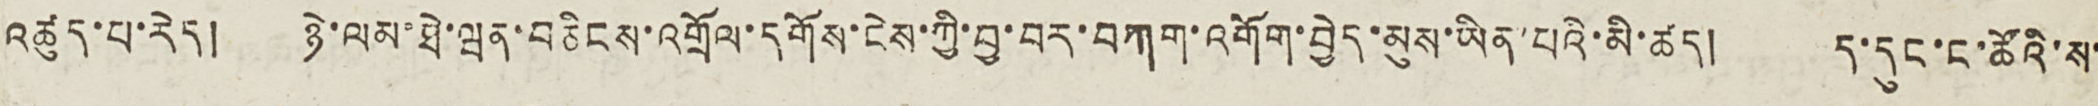འཚུད་པ་རེད། ཉེ་ལམ་ཐེ་ཝན་བཅིངས་འགྲོལ་དགོས་ངེས་ཀྱི་བྱ་བར་བཀག་འགོག་བྱེད་མུས་ཡིན་པའི་མི་ཚད། ད་དུང་ང་ཚོའི་ས་
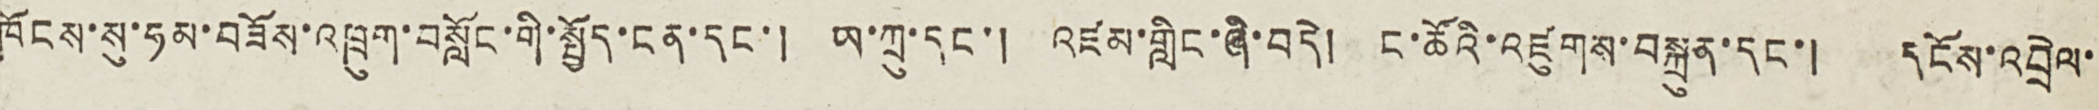ཁོངས་སུ་ཧམ་བཟོས་འཁྲུག་བསློང་གི་སྤྱོད་ངན་དང་། ཡ་ཀྲུ་དང་། འཛམ་གླིང་ཞི་བདེ། ང་ཚོའི་འཛུགས་བསྐྲུན་དང་། དངོས་འབྲེལ་
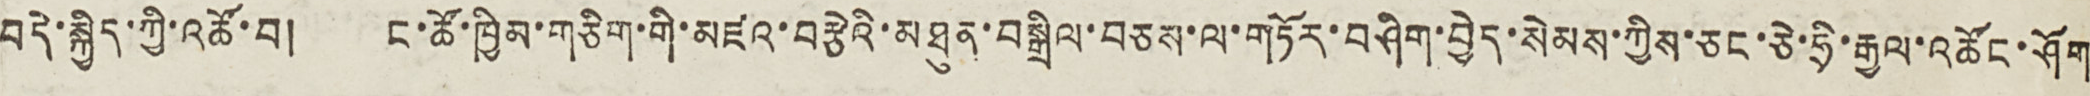བདེ་སྐྱིད་ཀྱི་འཚོ་བ། ང་ཚོ་ཁྱིམ་གཅིག་གི་མཛའ་བརྩེའི་མཐུན་བསྒྲིལ་བཅས་ལ་གཏོར་བཤིག་བྱེད་སེམས་ཀྱིས་ཅང་ཅེ་ཧྲི་རྒྱལ་འཚོང་ཤོག
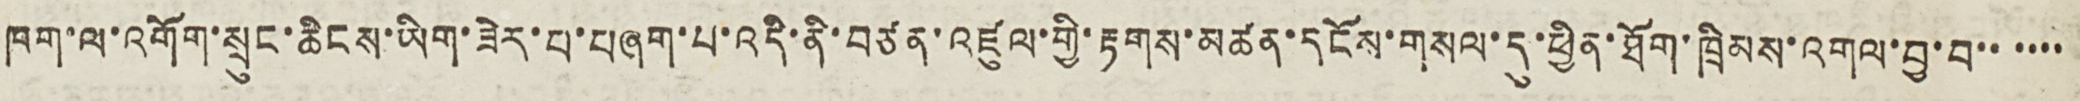ཁག་ལ་འགོག་སྲུང་ཆིངས་ཡིག་ཟེར་བ་བཞག་པ་འདི་ནི་བཙན་འཛུལ་གྱི་རྟགས་མཚན་དངོས་གསལ་དུ་ཕྱིན་ཐོག་ཁྲིམས་འགལ་བྱ་བ་་་་་་
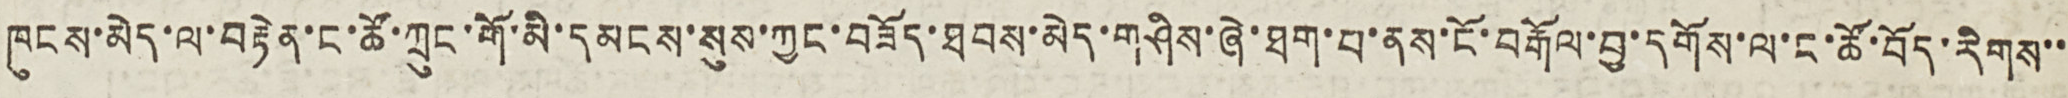ཁུངས་མེད་ལ་བརྟེན་ང་ཚོ་ཀྲུང་གོ་མི་དམངས་སུས་ཀྱང་བཟོད་ཐབས་མེད་གཤིས་ཞེ་ཐག་པ་ནས་ངོ་བརྒོལ་བྱ་དགོས་ལ་ང་ཚོ་བོད་རིགས་་
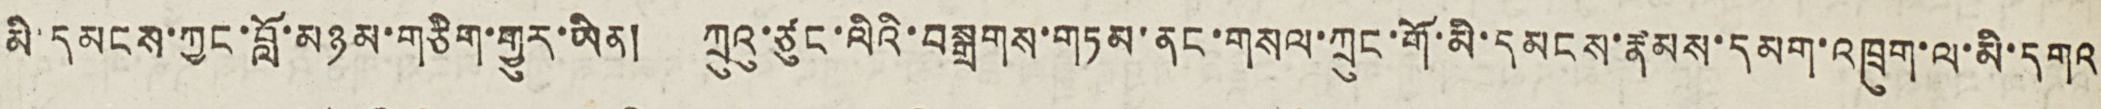མི་དམངས་ཀྱང་བློ་མཉམ་གཅིག་གྱུར་ཡིན། ཀྲུའུ་ཙུང་ལིའི་བསྒྲགས་གཏམ་ནང་གསལ་ཀྲུང་གོ་མི་དམངས་རྣམས་དམག་འཁྲུག་ལ་མི་དགའ
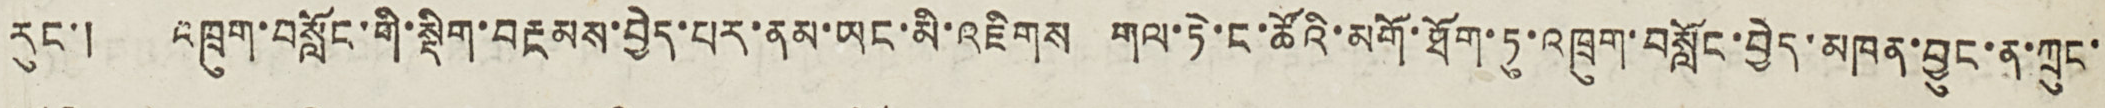རུང་། འཁྲུག་བསློང་གི་སྡིག་བརྔམས་བྱེད་པར་ནམ་ཡང་མི་འཇིགས གལ་ཏེ་ང་ཚོའི་མགོ་ཐོག་ཏུ་འཁྲུག་བསློང་བྱེད་མཁན་བྱུང་ན་ཀྲུང་
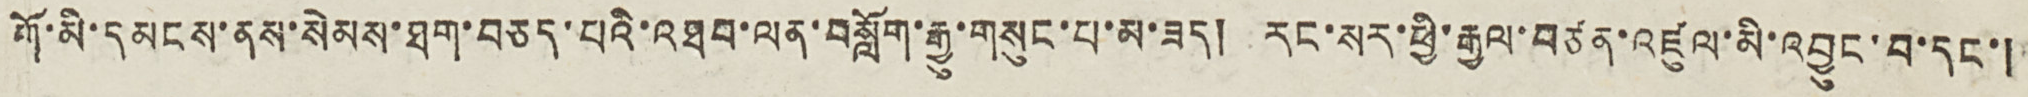གོ་མི་དམངས་ནས་སེམས་ཐག་བཅད་པའི་འཐབ་ལན་བསློག་རྒྱུ་གསུང་པ་མ་ཟད། རང་སར་ཕྱི་རྒྱལ་བཙན་འཛུལ་མི་འབྱུང་བ་དང་།
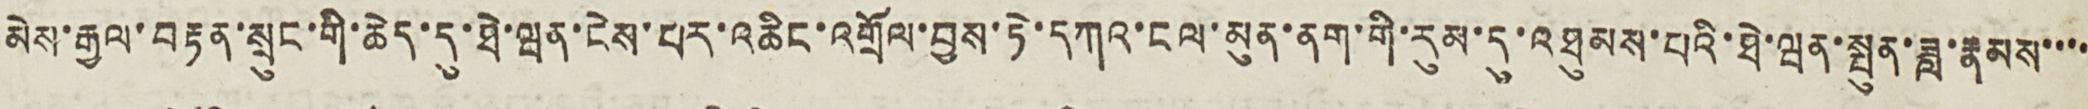མེས་རྒྱལ་བརྟན་སྲུང་གི་ཆེད་དུ་ཐེ་ཝན་ངེས་པར་འཆིང་འགྲོལ་བྱས་ཏེ་དཀའ་ངལ་མུན་ནག་གི་རུམ་དུ་འཐུམས་པའི་ཐེ་ཝན་སྤུན་ཟླ་རྣམས་་་་
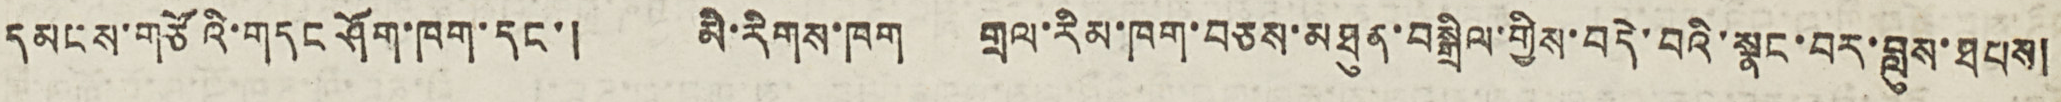དམངས་གཙོའི་གདང ཤོག་ཁག་དང་། མི་རིགས་ཁག གྲལ་རིམ་ཁག་བཅས་མཐུན་བསྒྲིལ་གྱིས་བདེ་བའི་སྣང་བར་བླུས་ཐབས།
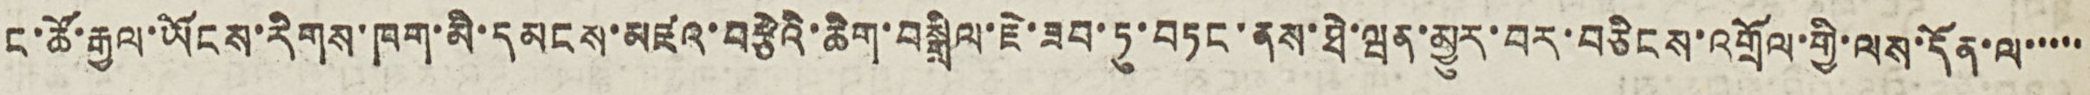ང་ཚོ་རྒྱལ་ཡོངས་རིགས་ཁག་མི་དམངས་མཛའ་བརྩེའི་ཆིག་བསྒྲིལ་ཇེ་ཟབ་ཏུ་བཏང་ནས་ཐེ་ཝན་མྱུར་བར་བཅིངས་འགྲོལ་གྱི་ལས་དོན་ལ་་་་་
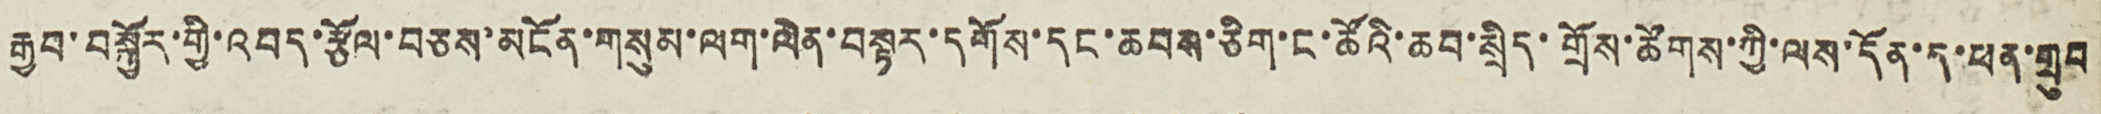རྒྱབ་བསྐྱོར་གྱི་འབད་རྩོལ་བཅས་མངོན་གསུམ་ལག་ལེན་བསྟར་དགོས་དང་ཆབས་ཅིག་ང་ཚོའི་ཆབ་སྲིད་གྲོས་ཚོགས་ཀྱི་ལས་དོན་ད་ཕན་གྲུབ
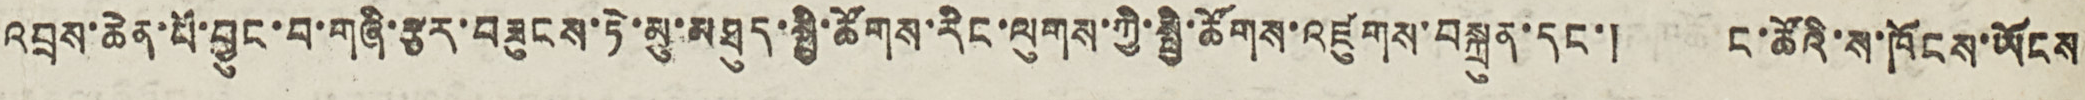འབྲས་ཆེན་པོ་བྱུང་བ་གཞི་རྩར་བཟུངས་ཏེ་མུ་མཐུད་སྤྱི་ཚོགས་རིང་ལུགས་ཀྱི་སྤྱི་ཚོགས་འཛུགས་བསྐྲུན་དང་། ང་ཚོའི་ས་ཁོངས་ཡོངས
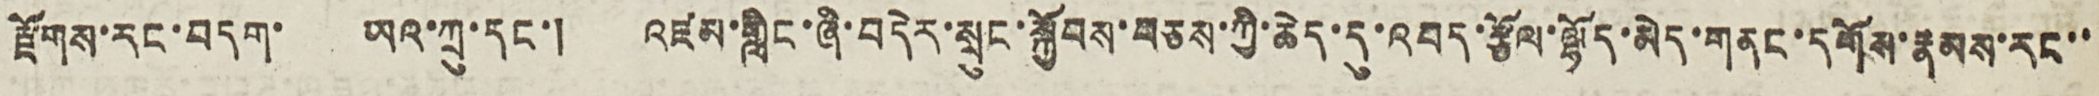རྫོགས་རང་བདག་ ཡའ་ཀྲུ་དང་། འཛམ་གླིང་ཞི་བདེར་སྲུང་སྐྱོབས་བཅས་ཀྱི་ཆེད་དུ་འབད་རྩོལ་ལྷོད་མེད་གནང་དགོས་རྣམས་རང་་
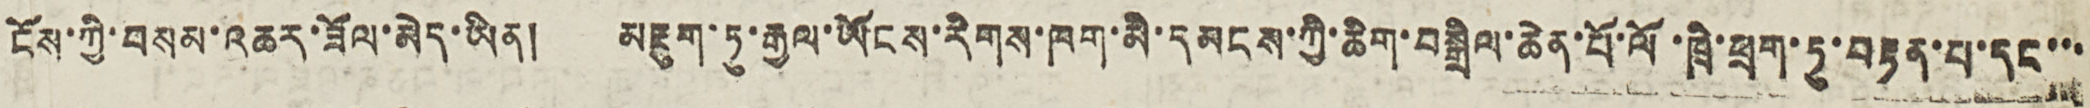ངོས་ཀྱི་བསམ་འཆར་ཟོལ་མེད་ཡིན། མཇུག་ཏུ་རྒྱལ་ཡོངས་རིགས་ཁག་མི་དམངས་ཀྱི་ཆིག་བསྒྲིལ་ཆེན་པོ་ལོ་ཁྲི་ཕྲག་ཏུ་བརྟན་པ་དང་་་
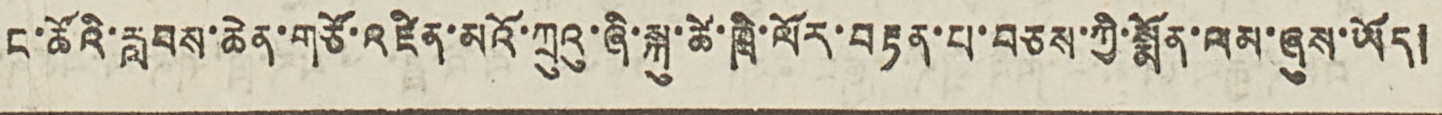ང་ཚོའི་རླབས་ཆེན་གཙོ་འཛིན་མའོ་ཀྲུའུ་ཞི་སྐུ་ཚེ་ཁྲི་ལོར་བརྟན་པ་བཅས་ཀྱི་སྨོན་ལམ་ཞུས་ཡོད།
